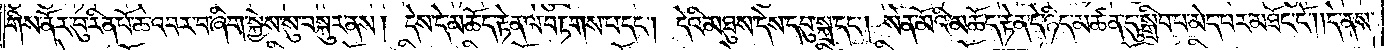གིས་ནོར་བུ་རིན་པོ་ཆེ་འབར་བ་ཞིག་སྐྱེས་སུ་བསྐུར་ནས། དེས་དེ་མཆོད་རྟེན་ལ་བརྟགས་པ་དང༌། དེའི་མཐུས་དེས་དབུ་སྐྲ་དང༌། སེན་མོའི་མཆོད་རྟེན་དེ་ཉིད་མཚན་དུ་སྒྲིབ་པ་མེད་པར་མཐོང་ངོ༌། །དེ་ནས་
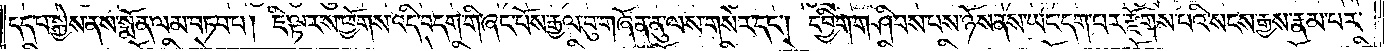དད་པ་སྐྱེས་ནས་སྨོན་ལམ་བཏབ་པ། ཇི་ལྟར་ས་ཕྱོགས་འདི་བདག་གི་ཞང་པོས་རྒྱལ་བུ་གཞོན་ནུ་ལས་གསེར་དང༌། དབྱིག་གཤིབས་པས་ཉོས་ནས་ཡང་དག་པར་རྫོགས་པའི་སངས་རྒྱས་རྣམ་པར་
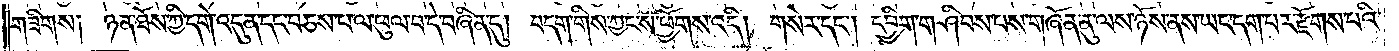གཟིགས། ཉན་ཐོས་ཀྱི་དགེ་འདུན་དང་བཅས་པ་ལ་ཕུལ་བ་དེ་བཞིན་དུ། བདག་གིས་ཀྱང་ས་ཕྱོགས་འདི། གསེར་དང༌། དབྱིག་གཤིབས་པས་གཞོན་ནུ་ལས་ཉོས་ནས་ཡང་དག་པར་རྫོགས་པའི་
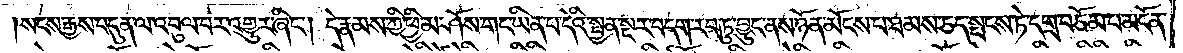སངས་རྒྱས་བདུན་ལ་འབུལ་བར་འགྱུར་ཞིང༌། དེ་རྣམས་ཀྱི་ཕྱི་མ་ཤོས་གང་ཡིན་པ་དེའི་སྤྱན་སྔར་བདག་རབ་ཏུ་བྱུང་ནས་ཉོན་མོངས་པ་ཐམས་ཅད་སྤངས་ཏེ་དགྲ་བཅོམ་པ་མངོན་
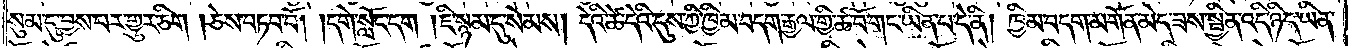སུམ་དུ་བྱས་པར་གྱུར་ཅིག །ཅེས་བཏབ་བོ། །དགེ་སློང་དག །ཇི་སྙམ་དུ་སེམས། དེའི་ཚེ་དེའི་དུས་ཀྱི་ཁྱིམ་བདག་རྒྱལ་གྱི་ཚ་བོ་གང་ཡིན་པ་དེ་ནི། ཁྱིམ་བདག་མགོན་མེད་ཟས་སྦྱིན་འདི་ཉིད་ཡིན་
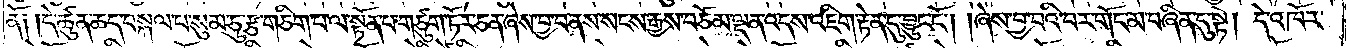ནོ། །དེ་ཚུན་ཆད་བསྐལ་པ་སུམ་ཅུ་རྩ་གཅིག་པ་ལ་སྟོན་པ་གཙུག་ཏོར་ཅན་ཞེས་བྱ་བ་ནས་སངས་རྒྱས་བཅོམ་ལྡན་འདས་འཇིག་རྟེན་དུ་བྱུང་ངོ༌། །ཞེས་བྱ་བའི་བར་གོང་མ་བཞིན་དུ་སྟེ། དེ་འཁོར་
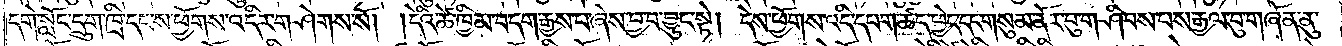དགེ་སློང་དྲུག་ཁྲི་དང་ས་ཕྱོགས་འདིར་གཤེགས་སོ། །དེའི་ཚེ་ཁྱིམ་བདག་རྒྱས་པ་ཞེས་བྱ་བ་བྱུང་སྟེ། དེས་ཕྱོགས་འདི་དཔག་ཚད་ཕྱེད་དང་གསུམ་ནོར་བུ་གཤིབས་པས་རྒྱལ་བུ་གཞོན་ནུ་
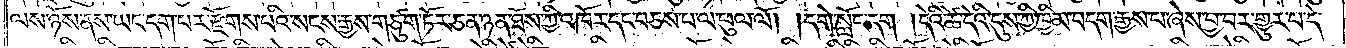ལས་ཉོས་ནས་ཡང་དག་པར་རྫོགས་པའི་སངས་རྒྱས་གཙུག་ཏོར་ཅན་ཉན་ཐོས་ཀྱི་འཁོར་དང་བཅས་པ་ལ་ཕུལ་ལོ། །དགེ་སློང་དག །དེའི་ཚེ་དེའི་དུས་ཀྱི་ཁྱིམ་བདག་རྒྱས་པ་ཞེས་བྱ་བར་གྱུར་པ་དེ་
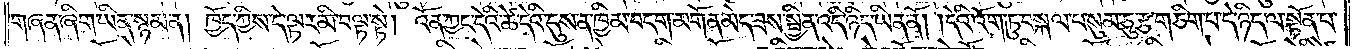གཞན་ཞིག་ཡིན་སྙམ་ན། ཁྱོད་ཀྱིས་དེ་ལྟར་མི་བལྟ་སྟེ། འོན་ཀྱང་དེའི་ཚེ་དེའི་དུས་ན་ཁྱིམ་བདག་མགོན་མེད་ཟས་སྦྱིན་འདི་ཉིད་ཡིན་ནོ། །དེའི་འོག་ཏུ་བསྐལ་པ་སུམ་ཅུ་རྩ་གཅིག་པ་དེ་ཉིད་ལ་སྟོན་པ་
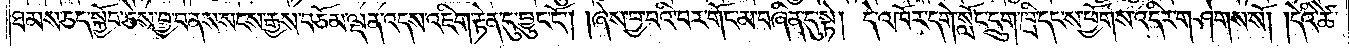ཐམས་ཅད་སྐྱོབ་ཅེས་བྱ་བ་ནས་སངས་རྒྱས་བཅོམ་ལྡན་འདས་འཇིག་རྟེན་དུ་བྱུང་ངོ༌། །ཞེས་བྱ་བའི་བར་གོང་མ་བཞིན་དུ་སྟེ། དེ་འཁོར་དགེ་སློང་དྲུག་ཁྲི་དང་ས་ཕྱོགས་འདིར་གཤེགས་སོ། །དེའི་ཚེ་
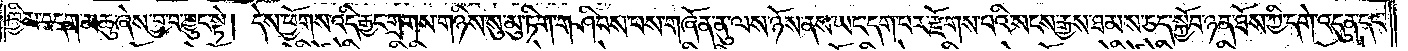ཁྱིམ་བདག་མཆུ་ཞེས་བྱ་བ་བྱུང་སྟེ། དེས་ཕྱོགས་འདི་རྒྱང་གྲགས་གཉིས་སུ་མུ་ཏིག་གཤིབས་པས་གཞོན་ནུ་ལས་ཉོས་ནས་ཡང་དག་པར་རྫོགས་པའི་སངས་རྒྱས་ཐམས་ཅད་སྐྱོབ་ཉན་ཐོས་ཀྱི་དགེ་འདུན་དང་
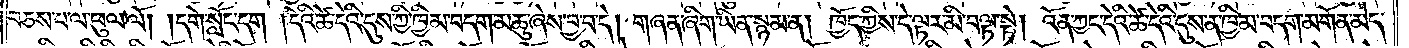བཅས་པ་ལ་ཕུལ་ལོ། །དགེ་སློང་དག །དེའི་ཚེ་དེའི་དུས་ཀྱི་ཁྱིམ་བདག་མཆུ་ཞེས་བྱ་བ་དེ། གཞན་ཞིག་ཡིན་སྙམ་ན། ཁྱོད་ཀྱིས་དེ་ལྟར་མི་བལྟ་སྟེ། འོན་ཀྱང་དེའི་ཚེ་དེའི་དུས་ན་ཁྱིམ་བདག་མགོན་མེད་
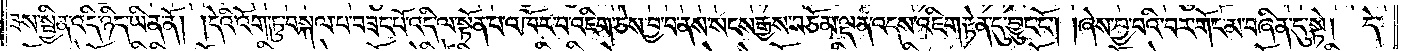ཟས་སྦྱིན་འདི་ཉིད་ཡིན་ནོ། །དེའི་འོག་ཏུ་བསྐལ་པ་བཟང་པོ་འདི་ལ་སྟོན་པ་འཁོར་བ་འཇིག་ཅེས་བྱ་བ་ནས་སངས་རྒྱས་བཅོམ་ལྡན་འདས་འཇིག་རྟེན་དུ་བྱུང་ངོ༌། །ཞེས་བྱ་བའི་བར་གོང་མ་བཞིན་དུ་སྟེ། དེ་
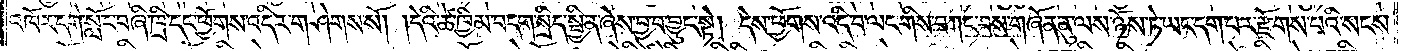འཁོར་དགེ་སློང་བཞི་ཁྲི་དང་ཕྱོགས་འདིར་གཤེགས་སོ། །དེའི་ཚེ་ཁྱིམ་བདག་སྲིད་སྦྱིན་ཞེས་བྱ་བ་བྱུང་སྟེ། དེས་ཕྱོགས་འདི་བ་ལང་གིས་བཀང་བས་གཞོན་ནུ་ལས་ཉོས་ཏེ་ཡང་དག་པར་རྫོགས་པའི་སངས་
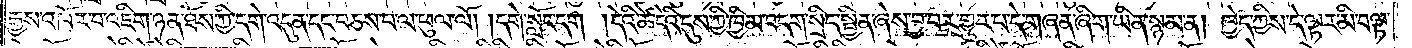རྒྱས་འཁོར་བ་འཇིག་ཉན་ཐོས་ཀྱི་དགེ་འདུན་དང་བཅས་པ་ལ་ཕུལ་ལོ། །དགེ་སློང་དག །དེའི་ཚེ་དེའི་དུས་ཀྱི་ཁྱིམ་བདག་སྲིད་སྦྱིན་ཞེས་བྱ་བར་གྱུར་པ་དེ་གཞན་ཞིག་ཡིན་སྙམ་ན། ཁྱེད་ཀྱིས་དེ་ལྟར་མི་བལྟ་
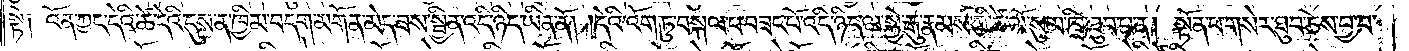སྟེ༑ འོན་ཀྱང་དེའི་ཚེ་དེའི་དུས་ན་ཁྱིམ་བདག་མགོན་མེད་ཟས་སྦྱིན་འདི་ཉིད་ཡིན་ནོ། །དེའི་འོག་ཏུ་བསྐལ་པ་བཟང་པོ་འདི་ཉིད་ལ་སྐྱེ་རྒུ་རྣམས་ཀྱི་ཚེ་ལོ་སུམ་ཁྲི་ཐུབ་པ་ན། སྟོན་པ་གསེར་ཐུབ་ཅེས་བྱ་བ་
